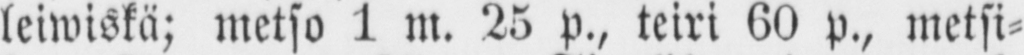leiwiskä; metso 1 m. 25 p., teiri 60 p., metsi-
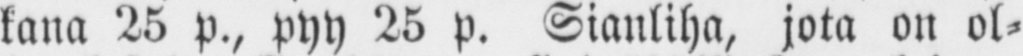kana 25 p., pyy 25 p. Sianliha, jota on ol-
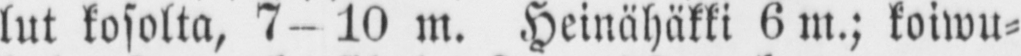lut kosolta, 7-10 m. Heinähäkki 6 m.; koiwu-
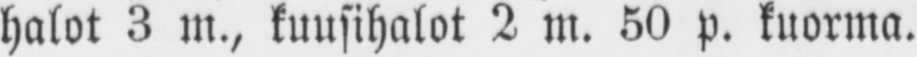halot 3 m., kuusihalot 2 m. 50 p. kuorma.
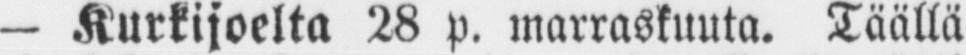— Kurkijoelta 28 p. marraskuuta. Täällä
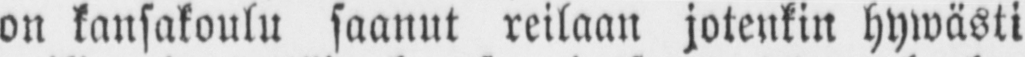on kansakoulu saanut reilaan jotenkin hywästi
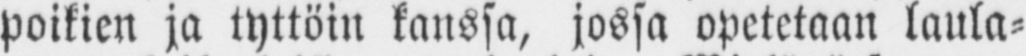poikien ja tyttöin kanssa, jossa opetetaan laula-
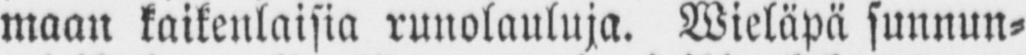maan kaikenlaisia runolauluja. Wieläpä sunnun-
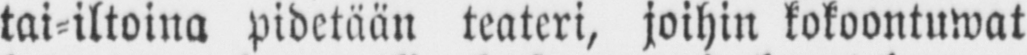tai-iltoina pidetään teateri, joihin kokoontuwat
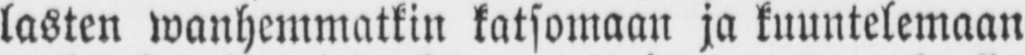lasten wanhemmatkin katsomaan ja kuuntelemaan
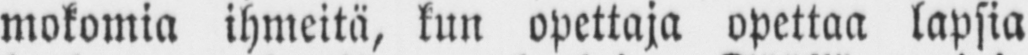mokomia ihmeitä, kun opettaja opettaa lapsia
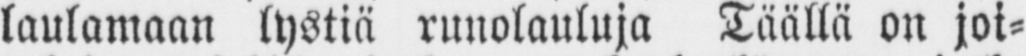laulamaan lystiä runolauluja Täällä on joi-
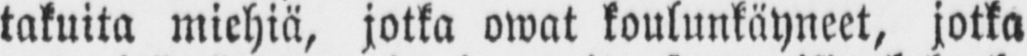takuita miehiä, jotka owat koulunkäyneet, jotka
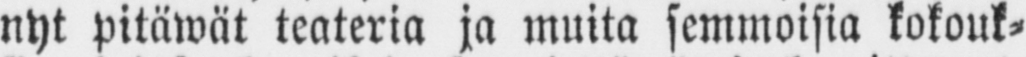nyt pitäwät teateria ja muita semmoisia kokouk-
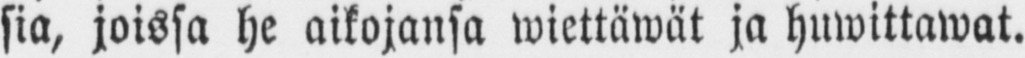sia, joissa he aikojansa wiettäwät ja huwittawat.
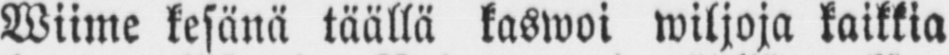Wiime kesänä täällä kaswoi wiljoja kaikkia
